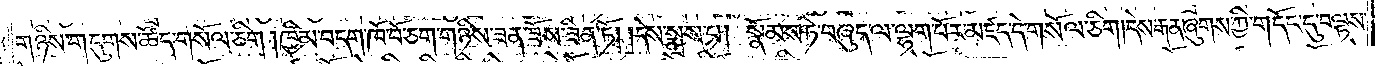གཉིས་གདུགས་ཚོད་གསོལ་ཅིག །ཁྱིམ་བདག་ཁོ་བོ་ཅག་གཉིས་ཟན་ཟོས་ཟིན་ཏོ། །དེས་སྨྲས་པ། སྣོམས་ཏེ་བཞུད་ལ་ལྷག་པོར་མཛད་དེ་གསོལ་ཅིག །དེས་རྒན་ཞུགས་ཀྱི་གདོང་དུ་བལྟས་
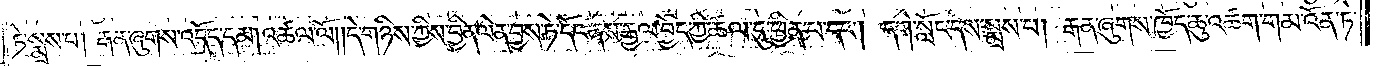ཏེ་སྨྲས་པ། རྒན་ཞུགས་འདོད་དམ། འཚལ་ལོ། །དེ་གཉིས་ཀྱིས་བྱིན་ལེན་བྱས་ཏེ་དོང་ནས་རྒྱལ་བྱེད་ཀྱི་ཚལ་དུ་ཕྱིན་པ་དང༌། དགེ་སློང་དེས་སྨྲས་པ། རྒན་ཞུགས་ཁྱོད་ཆུ་འཚག་གམ་འོན་ཏེ་
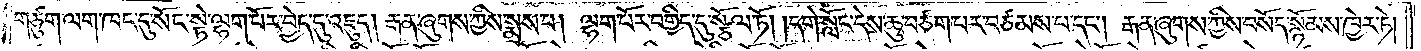གཙུག་ལག་ཁང་དུ་སོང་སྟེ་ལྷག་པོར་བྱེད་དུ་འཇུད། རྒན་ཞུགས་ཀྱིས་སྨྲས་པ། ལྷག་པོར་བགྱིད་དུ་སྩོལ་ཏོ། །དགེ་སློང་དེས་ཆུ་བཙག་པར་བཙམས་པ་དང༌། རྒན་ཞུགས་ཀྱིས་བསོད་སྙོམས་ཁྱེར་ཏེ།
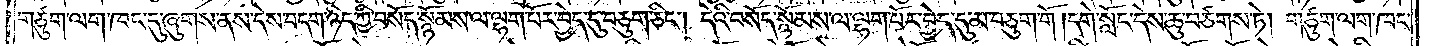གཙུག་ལག་ཁང་དུ་ཞུགས་ནས་དེས་བདག་ཉིད་ཀྱི་བསོད་སྙོམས་ལ་ལྷག་པོར་བྱེད་དུ་བཅུག་ཅིང༌། དེའི་བསོད་སྙོམས་ལ་ལྷག་པོར་བྱེད་དུ་མ་བཅུག་གོ །དགེ་སློང་དེས་ཆུ་བཙགས་ཏེ། གཙུག་ལག་ཁང་
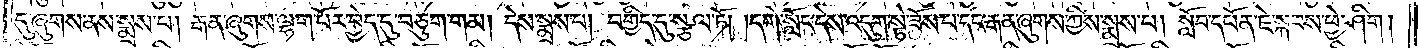དུ་ཞུགས་ནས་སྨྲས་པ། རྒན་ཞུགས་ལྷག་པོར་བྱེད་དུ་བཅུག་གན། དེས་སྨྲས་པ། བགྱིད་དུ་སྩལ་ཏོ། །དགེ་སློང་དེས་འདུག་སྟེ་ཟོས་པ་དང་རྒན་ཞུགས་ཀྱིས་སྨྲས་པ། སློབ་དཔོན་ཇེ་སྐབས་ཕྱེ་ཤིག །
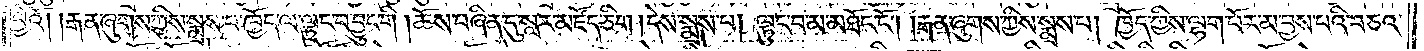ཕྱེའོ། །རྒན་ཞུགས་ཀྱིས་སྨྲས་པ་ཁྱོད་ལ་ལྟུང་བ་བྱུང་གི །ཆོས་བཞིན་དུ་སླར་མཛོད་ཅིག །དེས་སྨྲས་པ། ལྟུང་བ་མ་མཐོང་ངོ༌། །རྒན་ཞུགས་ཀྱིས་སྨྲས་པ། ཁྱོད་ཀྱིས་ལྷག་པོར་མ་བྱས་པའི་བཅའ་
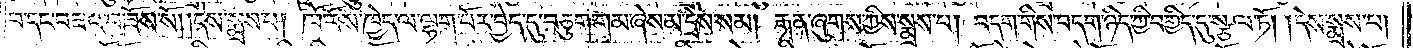བ་དང་བཟའ་བ་ཟོས་སོ། །དེས་སྨྲས་པ། ཁོ་བོས་ཁྱེད་ལ་ལྷག་པོར་བྱེད་དུ་བཅུག་གམ་ཞེས་མ་དྲིས་སམ། རྒན་ཞུགས་ཀྱིས་སྨྲས་པ། བདག་གིས་བདག་ཉིད་ཀྱི་བགྱིད་དུ་སྩལ་ཏོ། །དེས་སྨྲས་པ།
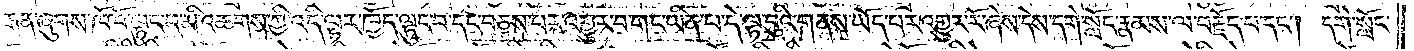རྒན་ཞུགས་ཁོ་བོ་ལྟུང་བ་མི་འཆགས་ཀྱི་འདི་ལྟར་ཁྱོད་ལྟུང་བ་དང་བཅས་པར་འགྱུར་བ་གང་ཡིན་པ་དེ་ལྟ་བུའི་གནས་ཡོད་པར་འགྱུར་རོ་ཞེས་དེས་དགེ་སློང་རྣམས་ལ་བརྗོད་པ་དང༌། དགེ་སློང་
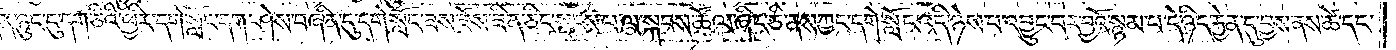དོན་ཉུང་དུ་དག་ཅིའི་ཕྱིར་དགེ་སློང་དག་ཤེས་བཞིན་དུ་དགེ་སློང་ཟས་ཟིན་ཅིང་སྤངས་པ་ལ་སྐབས་ཚོལ་ཞིང་ཅི་ནས་ཀྱང་དགེ་སློང་འདི་ཉེས་པ་འབྱུང་བར་བྱའོ་སྙམ་པ་དེ་ཉིད་རྐྱེན་དུ་བྱས་ནས་ཚེ་དང་
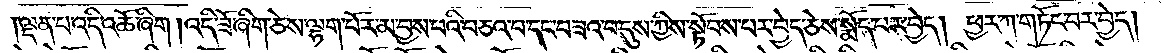ལྡན་པ་འདི་འཆོ་ཞིག །འདི་ཟོ་ཞིག་ཅེས་ལྷག་པོར་མ་བྱས་པའི་བཅའ་བ་དང་བཟའ་བ་དུས་ཀྱིས་སྟོབས་པར་བྱེད་ཅེས་སྨོད་པར་བྱེད། ཕྱར་ཀ་གཏོང་བར་བྱེད།
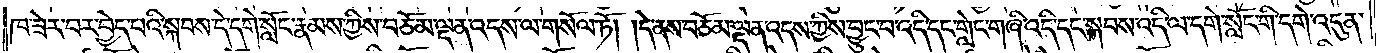ཁ་ཟེར་བར་བྱེད་པའི་སྐབས་དེ་དགེ་སློང་རྣམས་ཀྱིས་བཅོམ་ལྡན་འདས་ལ་གསོལ་ཏོ། །དེ་ནས་བཅོམ་ལྡན་འདས་ཀྱིས་བྱུང་བ་འདི་དང་གླེང་གཞི་འདི་དང་སྐབས་འདི་ལ་དགེ་སློང་གི་དགེ་འདུན་
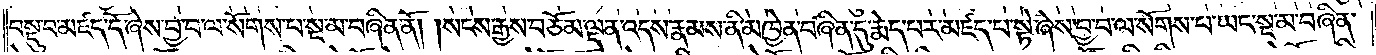བསྡུ་བ་མཛད་དོ་ཞེས་བྱ་བ་ལ་སོགས་པ་སྔ་མ་བཞིན་ནོ། །སངས་རྒྱས་བཅོམ་ལྡན་འདས་རྣམས་ནི་མཁྱེན་བཞིན་དུ་རྨེད་པར་མཛད་པ་སྟེ་ཞེས་བྱ་བ་ལ་སོགས་པ་ཡང་སྔ་མ་བཞིན་
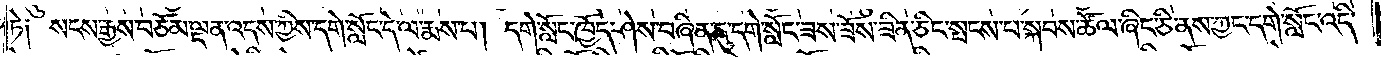ཏེ༑ སངས་རྒྱས་བཅོམ་ལྡན་འདས་ཀྱིས་དགེ་སློང་དེ་ལ་རྨས་པ། དགེ་སློང་ཁྱོད་ཤེས་བཞིན་དུ་དགེ་སློང་ཟས་ཟོས་ཟིན་ཅིང་སྤངས་པ་སྐབས་ཚོལ་ཞིང་ཅི་ནས་ཀྱང་དགེ་སློང་འདི་
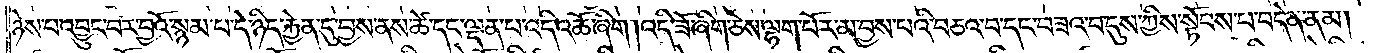ཉེས་པ་འབྱུང་བར་བྱའོ་སྙམ་པ་དེ་ཉིད་རྐྱེན་དུ་བྱས་ནས་ཚེ་དང་ལྡན་པ་འདི་འཆོ་ཞིག །འདི་ཟོ་ཞིག་ཅེས་ལྷག་པོར་མ་བྱས་པའི་བཅའ་བ་དང་བཟའ་བ་དུས་ཀྱིས་སྟོབས་པ་བདེན་ནམ།
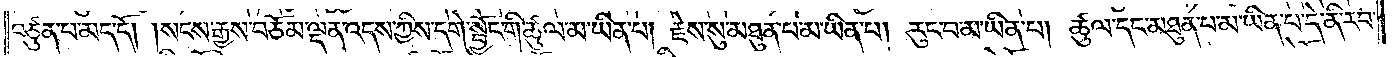བཙུན་པ་མད་དོ། །སངས་རྒྱས་བཅོམ་ལྡན་འདས་ཀྱིས་དགེ་སྦྱོང་གི་ཚུལ་མ་ཡིན་པ། རྗེས་སུ་མཐུན་པ་མ་ཡིན་པ། རུང་བ་མ་ཡིན་པ། ཚུལ་དང་མཐུན་པ་མ་ཡིན་པ་དེ་ནི་རབ་
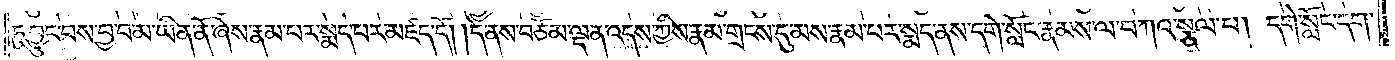ཏུ་བྱུང་བས་བྱ་བ་མ་ཡིན་ནོ་ཞེས་རྣམ་པར་སྨད་པར་མཛད་དོ། །དེ་ནས་བཅོམ་ལྡན་འདས་ཀྱིས་རྣམ་གྲངས་དུ་མས་རྣམ་པར་སྨད་ནས་དགེ་སློང་རྣམས་ལ་བཀའ་སྩལ་པ། དགེ་སློང་དག་
